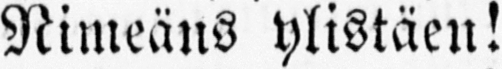Nimeäns ylistäen!
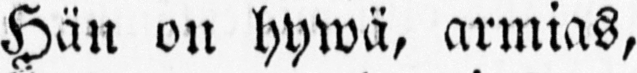Hän on hywä, armias,
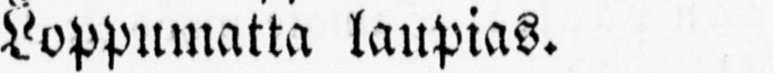Loppumatta laupias.
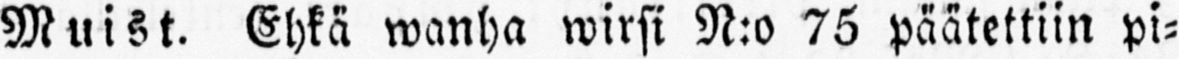Muist. Ehkä wanha wirsi N:o 75 päätettiin pi-
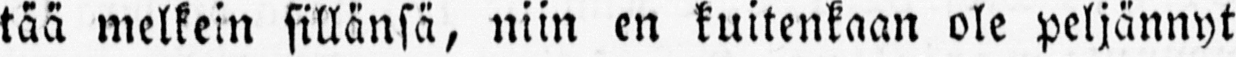tää melkein sillänsä, niin en kuitenkaan ole peljännyt
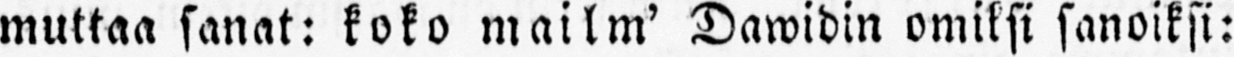muttaa sanat: koko mailm' Dawidin omiksi sanoiksi:
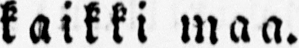kaikki maa.
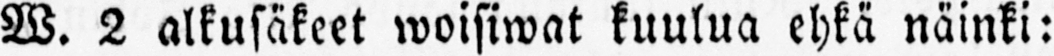W. 2 alkusäkeet woisiwat kuulua ehkä näinki:
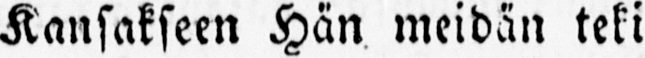Kansakseen Hän meidän teki
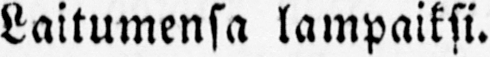Laitumensa lampaiksi.
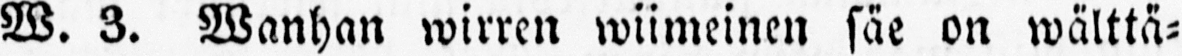W. Z. Wanhan wirren wiimeinen säe on wälttä-
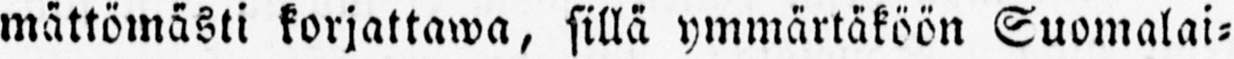mättömästi korjattawa, sillä ymmärtäköön Suomalai-
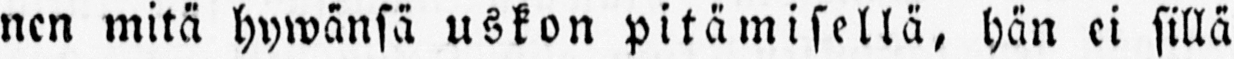nen mitä hywänsä uskon pitämisellä, hän ei sillä
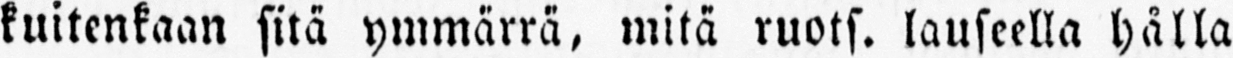kuitenkaan sitä ymmärrä, mitä ruots. lauseella hålla
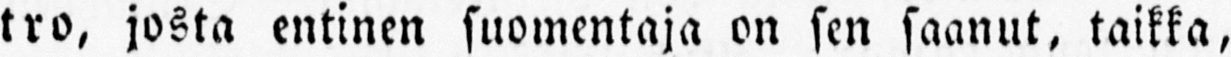tro, josta entinen suomentaja on sen saanut, taikka,
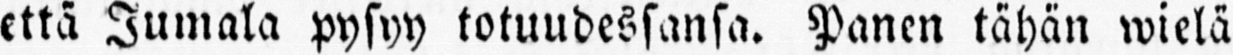että Jumala pysyy totuudessansa. Panen tähän wielä
